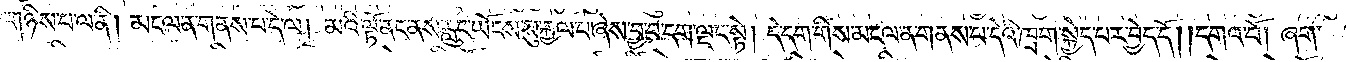རྩ་གཉིས་པ་ལ་ནི། མངལ་ན་གནས་པ་དེ་ལ། མའི་ལྟོ་ནང་ནས་རླུང་ཡོངས་སུ་རྒྱལ་པ་ཞེས་བྱ་བ་བདག་ལྡང་སྟེ། དེ་དག་གིས་མངལ་ན་གནས་པ་དེའི་ཁྲག་སྐྱེད་པར་བྱེད་དོ། །དགའ་བོ། ཞག་
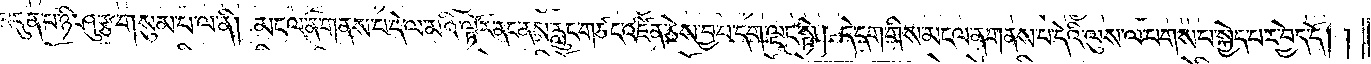བདུན་པ་ཉི་ཤུ་རྩ་གསུམ་པ་ལ་ནི། མངལ་ན་གནས་པ་དེ་ལ་མའི་ལྟོར་ནང་ནས་རླུང་གཙང་འཛིན་ཅེས་བྱ་བ་དག་ལྡང་སྟེ། དེ་དག་གིས་མངལ་ན་གནས་པ་དེའི་ལུས་ལ་པགས་པ་སྐྱེད་པར་བྱེད་དོ། །
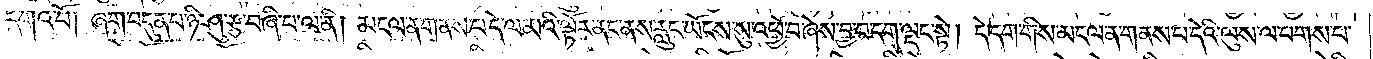དགའ་བོ། ཞག་བདུན་པ་ཉི་ཤུ་རྩ་བཞི་པ་ལ་ནི། མངལ་ན་གནས་པ་དེ་ལ་མའི་ལྟོར་ནང་ནས་རླུང་ཡོངས་སུ་འཕྱོ་བ་ཞེས་བྱ་བ་དག་ལྡང་སྟེ། དེ་དག་གིས་མངལ་ན་གནས་པ་དེའི་ལུས་ལ་པགས་པ་
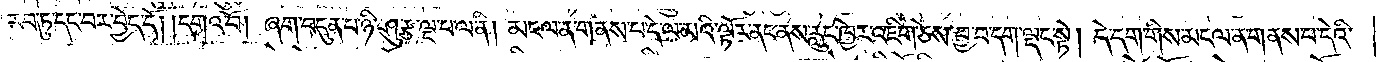རབ་ཏུ་དང་བར་བྱེད་དོ། །དགའ་བོ། ཞག་བདུན་པ་ཉི་ཤུ་རྩ་ལྔ་པ་ལ་ནི། མངལ་ན་གནས་པ་དེ་ལ་མའི་ལྟོར་ནང་ནས་རླུང་ཁྱེར་འཇིག་ཅེས་བྱ་བ་དག་ལྡང་སྟེ། དེ་དག་གིས་མངལ་ན་གནས་པ་དེའི་
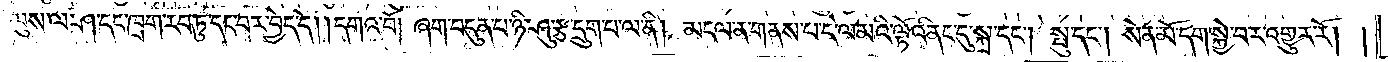ལུས་ལ་ཤ་དང་ཁྲག་རབ་ཏུ་དང་བར་བྱེད་དོ། དགའ་བོ། ཞག་བདུན་པ་ཉི་ཤུ་རྩ་དྲུག་པ་ལ་ནི། མངལ་ན་གནས་པ་དེ་ལ་མའི་ལྟོའི་ནང་དུ་སྐྲ་དང༌། སྤུ་དང༌། སེན་མོ་དག་སྐྱེ་བར་འགྱུར་རོ། །
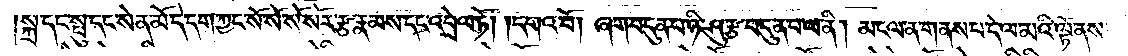སྐྲ་དང་སྤུ་དང་སེན་མོ་དེ་དག་ཀྱང་སོ་སོ་སོ་སོར་རྩ་རྣམས་དང་འབྲེལ་ཏོ། །དགའ་བོ། །ཞག་བདུན་པ་ཉི་ཤུ་རྩ་བདུན་པ་ལ་ནི། མངལ་ན་གནས་པ་དེ་ལ་མའི་ལྟོ་ནས་
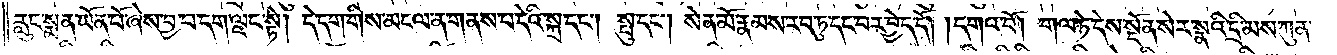རླུང་སྨན་ཡོན་པོ་ཞེས་བྱ་བ་དག་ལྡང་སྟེ། དེ་དག་གིས་མངལ་ན་གནས་པ་དེའི་སྐྲ་དང༌། སྤུ་དང༌། སེན་མོ་རྣམས་རབ་ཏུ་དང་བར་བྱེད་དོ། །དགའ་བོ། གལ་ཏེ་དེས་སྔོན་སེར་སྣའི་དྲི་མས་ཀུན་
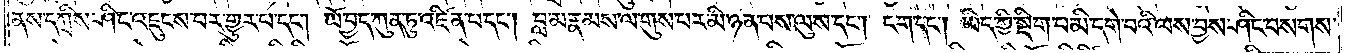ནས་དཀྲིས་ཤིང་འཇུངས་པར་གྱུར་པ་དང༌། ཡོ་བྱད་ཀུན་ཏུ་འཛིན་པ་དང༌། བླ་མ་རྣམས་ལ་གུས་པར་མི་ཉན་པས་ལུས་དང༌། ངག་དང༌། ཡིད་ཀྱི་སྡིག་བ་མི་དགེ་བའི་ལས་བྱས་ཤིང་བསགས་
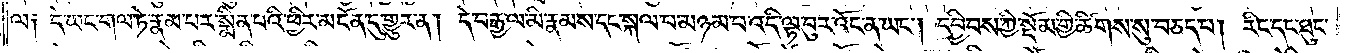ལ༑ དེ་ཡང་གལ་ཏེ་རྣམ་པར་སྨིན་པའི་ཕྱིར་མངོན་དུ་གྱུར་ན། དེ་བརྒྱ་ལ་མི་རྣམས་དང་སྐལ་བ་མཉམ་པ་འདི་ལྟ་བུར་འོང་ན་ཡང༌། དབྱིབས་ཀྱི་སྡོམ་གྱི་ཚིགས་སུ་བཅད་པ། རིང་དང་ཐུང་
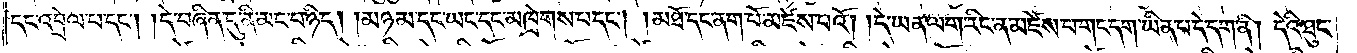དང་འབྲེལ་པ་དང༌། །དེ་བཞིན་དུ་ནི་མང་བ་ཉིད། །མཉམ་དང་ཡང་དང་མཁྲེགས་པ་དང༌། །མཐོ་དང་ནག་པོ་མཛེས་པའོ། །དེ་ཡན་ལག་རིང་ན་མཛེས་པ་གང་དག་ཡིན་པ་དེ་དག་ནི། དེའི་ཐུང་
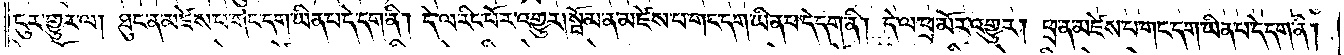ངུར་གྱུར་ལ། ཐུང་ན་མཛེས་པ་གང་དག་ཡིན་པ་དེ་དག་ནི། དེ་ལ་རིང་པོར་འགྱུར། སྦོམ་ན་མཛེས་པ་གང་དག་ཡིན་པ་དེ་དག་ནི། དེ་ལ་ཕྲ་མོར་འགྱུར། ཕྲ་ན་མཛེས་པ་གང་དག་ཡིན་པ་དེ་དག་ནི།
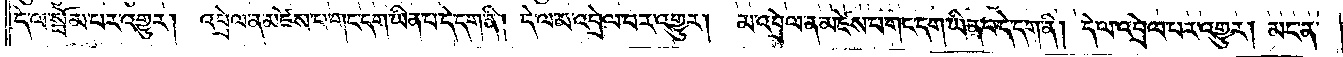དེ་ལ་སྦོམ་པར་འགྱུར། འབྲེལ་ན་མཛེས་པ་གང་དག་ཡིན་པ་དེ་དག་ནི། དེ་ལ་མ་འབྲེལ་པར་འགྱུར། མ་འབྲེལ་ན་མཛེས་པ་གང་དག་ཡིན་པ་དེ་དག་ནི། དེ་ལ་འབྲེལ་པར་འགྱུར། མང་ན་
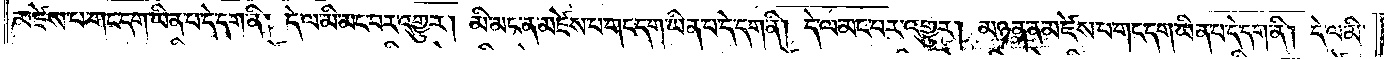མཛེས་པ་གང་དག་ཡིན་པ་དེ་དག་ནི། དེ་ལ་མི་མང་བར་འགྱུར། མི་མང་ན་མཛེས་པ་གང་དག་ཡིན་པ་དེ་དག་ནི། དེ་ལ་མང་བར་འགྱུར། མཉན་ན་མཛེས་པ་གང་དག་ཡིན་པ་དེ་དག་ནི། དེ་ལ་མི་
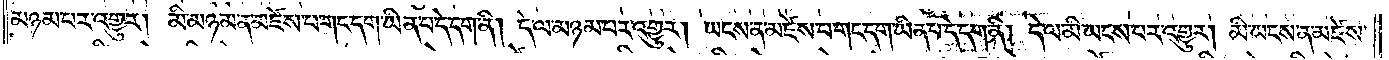མཉམ་པར་འགྱུར། མི་མཉམ་ན་མཛེས་པ་གང་དག་ཡིན་པ་དེ་དག་ནི། དེ་ལ་མཉམ་པར་འགྱུར། ཡངས་ན་མཛེས་པ་གང་དག་ཡིན་པ་དེ་དག་ནི། དེ་ལ་མི་ཡངས་པར་འགྱུར། མི་ཡངས་ན་མཛེས་
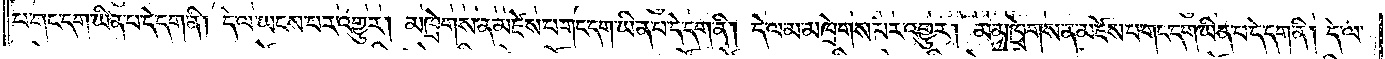པ་གང་དག་ཡིན་པ་དེ་དག་ནི། དེ་ལ་ཡངས་པར་འགྱུར། མཁྲེགས་ན་མཛེས་པ་གང་དག་ཡིན་པ་དེ་དག་ནི། དེ་ལ་མ་མཁྲེགས་པར་འགྱུར། མ་མཁྲེགས་ན་མཛེས་པ་གང་དག་ཡིན་པ་དེ་དག་ནི། དེ་ལ་
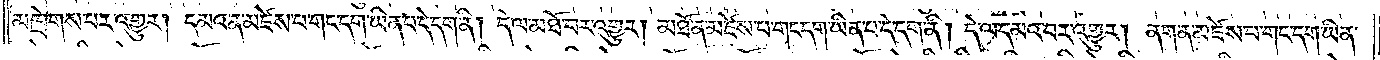མཁྲེགས་པར་འགྱུར། དམའ་ན་མཛེས་པ་གང་དག་ཡིན་པ་དེ་དག་ནི། དེ་ལ་མཐོ་བར་འགྱུར། མཐོ་ན་མཛེས་པ་གང་དག་ཡིན་པ་དེ་དག་ནི། དེ་ལ་དམའ་བར་འགྱུར། ནག་ན་མཛེས་པ་གང་དག་ཡིན་
